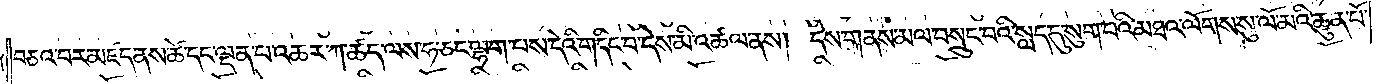བཅའ་བར་མཛད་ནས་ཚེ་དང་ལྡན་པ་འཆར་ཀ་ཚད་ལས་ཧ་ཅང་ལྷག་པས་དེའི་གདིང་བ་དེས་མི་འཚལ་ནས། དེས་གནས་མལ་བསྲུང་བའི་སླད་དུ་སུག་པའི་མཐའ་ལོགས་སུ་ལོ་མའི་ཆུན་པོ་
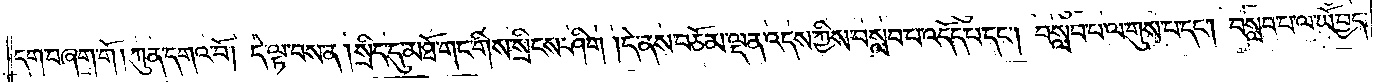དག་བཞག་གོ །ཀུན་དགའ་བོ། དེ་ལྟ་བས་ན། སྲིད་དུ་མཐོ་གང་གིས་སྲིངས་ཤིག །དེ་ནས་བཅོམ་ལྡན་འདས་ཀྱིས་བསླབ་པ་འདོད་པ་དང༌། བསླབ་པ་ལ་གུས་པ་དང༌། བསླབ་པ་ལ་ཡོ་བྱད་
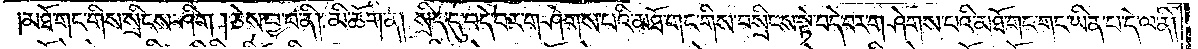མཐོ་གང་གིས་སྲིངས་ཤིག །ཅེས་བྱ་བ་ནི། མི་ཆོག་ན། སྲིད་དུ་བདེ་བར་གཤེགས་པའི་མཐོ་གང་གིས་བསྲིངས་སྟེ་བདེ་བར་གཤེགས་པའི་མཐོ་གང་གང་ཡིན་པ་དེ་ལ་ནི།
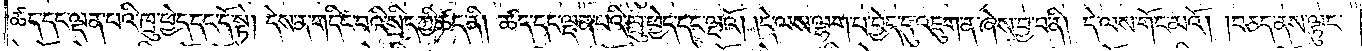ཚད་དང་ལྡན་པའི་ཁྲུ་ཕྱེད་དང་དོ་སྟེ། དེས་ན་གདིང་བའི་སྲིད་ཀྱི་ཚད་ནི། ཚད་དང་ལྡན་པའི་ཁྲུ་ཕྱེད་དང་ལྔའོ། །དེ་ལས་ལྷག་པ་བྱེད་དུ་འཇུག་ན་ཞེས་བྱ་བ་ནི། དེ་ལས་གོང་མའོ། །བཅད་ནས་ལྟུང་
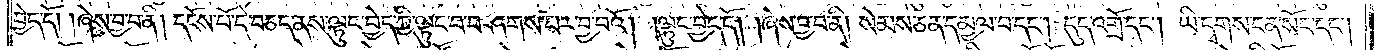བྱེད་དོ། །ཞེས་བྱ་བ་ནི། དངོས་པོ་དེ་བཅད་ནས་ལྟུང་བྱེད་ཀྱི་ལྟུང་བ་བཤགས་པར་བྱ་བའོ། །ལྟུང་བྱེད་དོ། །ཞེས་བྱ་བ་ནི། སེམས་ཅན་དམྱལ་བ་དང༌། དུད་འགྲོ་དང༌། ཡི་དྭགས་ངན་སོང་དང༌།
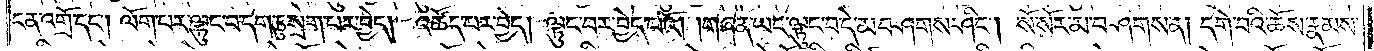ངན་འགྲོ་དང༌། ལོག་པར་ལྟུང་བ་དག་ཏུ་སྲེག་པར་བྱེད། འཚོད་པར་བྱེད། ལྟུང་བར་བྱེད་པའོ། །གཞན་ཡང་ལྟུང་བ་དེ་མ་བཤགས་ཤིང༌། སོ་སོར་མ་བཤགས་ན། དགེ་བའི་ཆོས་རྣམས་
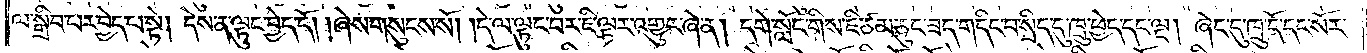ལ་སྒྲིབ་པར་བྱེད་པ་སྟེ། དེས་ན་ལྟུང་བྱེད་དོ། །ཞེས་གསུངས་སོ། །དེ་ལ་ལྟུང་བར་ཇི་ལྟར་འགྱུར་ཞེ་ན། དགེ་སློང་གིས་ཇི་ཙམ་ཅུང་ཟད་གདིང་བ་སྲིད་དུ་ཁྲུ་ཕྱེད་དང་ལྔ། ཞེང་དུ་ཁྲུ་དོ་དང་སོར་
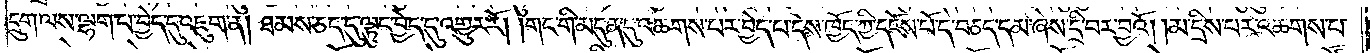དྲུག་ལས་ལྷག་པ་བྱེད་དུ་འཇུག་ན། ཐམས་ཅད་དུ་ལྟུང་བྱེད་དུ་འགྱུར་རོ། །གང་གི་མདུན་དུ་འཆགས་པར་བྱེད་པ་དེས་ཁྱོད་ཀྱི་དངོས་པོ་དེ་བཅད་དམ་ཞེས་དྲི་བར་བྱའོ། །མ་དྲིས་པར་འཆགས་པ་
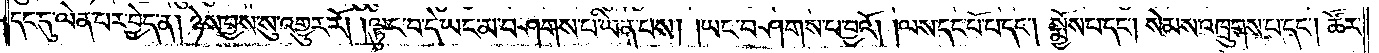དང་དུ་ལེན་པར་བྱེད་ན། ཉེས་བྱས་སུ་འགྱུར་རོ། །ལྟུང་བ་དེ་ཡང་མ་བཤགས་པ་ཡིན་པས། །ཡང་བཤགས་པ་བྱའོ། །ལས་དང་པོ་པ་དང༌། སྨྱོས་པ་དང༌། སེམས་འཁྲུགས་པ་དང༌། ཚོར་
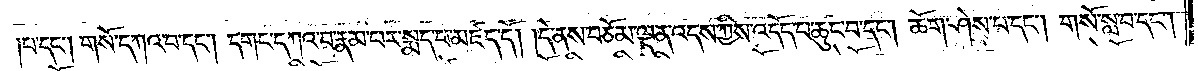།པ་དང༌། གསོ་དཀའ་བ་དང༌། དགང་དཀའ་བ་རྣམ་པར་སྨད་པ་མཛད་དོ། །དེ་ནས་བཅོམ་ལྡན་འདས་ཀྱིས་འདོད་པ་ཆུང་བ་དང༌། ཆོག་ཤེས་པ་དང༌། གསོ་སླ་བ་དང༌།
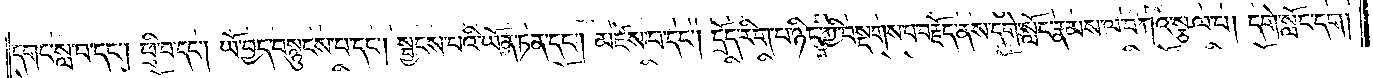དགང་སླ་བ་དང༌། ཕྲི་བ་དང༌། ཡོ་བྱད་བསྙུངས་པ་དང༌། སྦྱངས་པའི་ཡོན་ཏན་དང༌། མཛེས་པ་དང༌། དྲོད་རིག་པ་ཉིད་ཀྱི་བསྔགས་པ་བརྗོད་ནས་དགེ་སློང་རྣམས་ལ་བཀའ་སྩལ་པ། དགེ་སློང་དག།
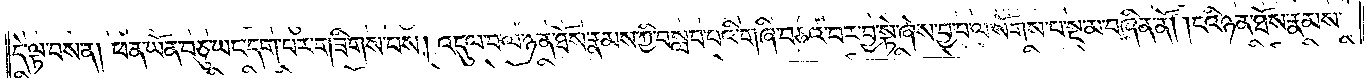དེ་ལྟ་བས་ན། ཕན་ཡོན་བཅུ་ཡང་དག་པར་གཟིགས་པས། འདུལ་བ་ལ་ཉན་ཐོས་རྣམས་ཀྱི་བསླབ་པའི་གཞི་བཅའ་བར་བྱ་སྟེ་ཞེས་བྱ་བ་ལ་སོགས་པ་སྔ་མ་བཞིན་ནོ། །ངའི་ཉན་ཐོས་རྣམས་
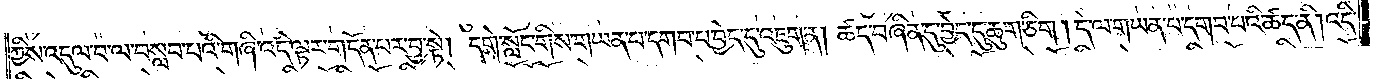ཀྱིས་འདུལ་བ་ལ་བསླབ་པའི་གཞི་འདི་ལྟར་གདོན་པར་བྱ་སྟེ། དགེ་སློང་གིས་གཡན་པ་དགབ་པ་བྱེད་དུ་འཇུག་ན། ཚད་བཞིན་དུ་བྱེད་དུ་ཆུག་ཅིག །དེ་ལ་གཡན་པ་དག་པའི་ཚད་ནི། འདི་
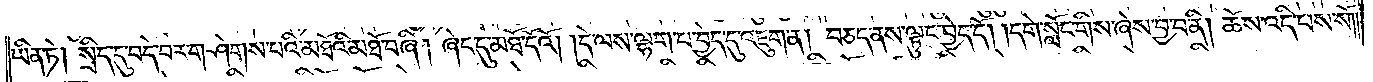ཡིན་ཏེ། སྲིད་དུ་བདེ་བར་གཤེགས་པའི་མཐོའི་མཐོ་བཞི། ཞེང་དུ་མཐོ་དོའོ། །དེ་ལས་ལྷག་པ་བྱེད་དུ་འཇུག་ན། བཅད་ནས་ལྟུང་བྱེད་དོ། །དགེ་སློང་གིས་ཞེས་བྱ་བ་ནི། ཆོས་འདི་པས་སོ༎
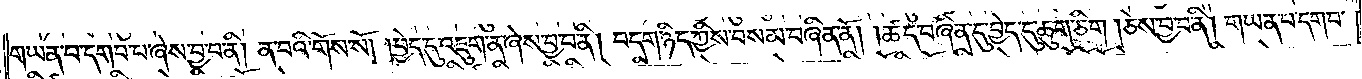གཡན་པ་དགབ་པ་ཞེས་བྱ་བ་ནི། ན་བའི་གོས་སོ། །བྱེད་དུ་འཇུག་ན་ཞེས་བྱ་བ་ནི། བདག་ཉིད་ཀྱིས་བསམ་བཞིན་ནོ། །ཚད་བཞིན་དུ་བྱེད་དུ་ཆུག་ཅིག །ཅེས་བྱ་བ་ནི། གཡན་པ་དག་པ་
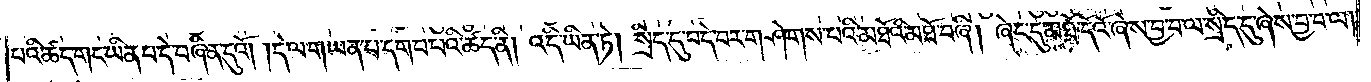པའི་ཚད་གང་ཡིན་པ་དེ་བཞིན་དུའོ། །དེ་ལ་གཡན་པ་དགབ་པའི་ཚད་ནི། འདི་ཡིན་ཏེ། སྲིད་དུ་བདེ་བར་གཤེགས་པའི་མཐོའི་མཐོ་བཞི། ཞེང་དུ་མཐོ་དོའོ་ཞེས་བྱ་བ་ལ་སྲིད་དུ་ཞེས་བྱ་བ་ལ།
